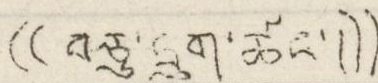(( བཅུ་དྲུག་ཚང་། ))
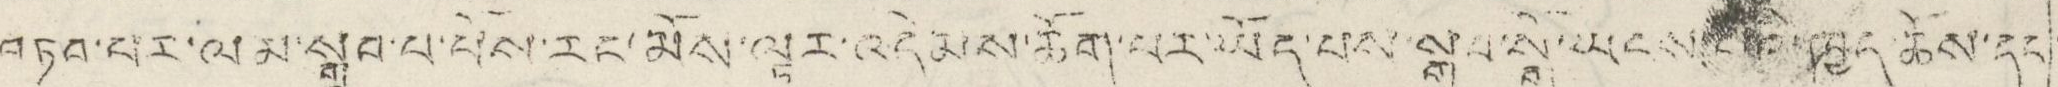བཏབ་པར་ལམ་སྒྲུབ་པ་པོས་རང་མོས་ལྟར་འདེམས་ཆོག་པར་ཡོད་པས་སྒྲུབ་སྒོ་ཡངས་བའི་ཁྱད་ཆོས་དང་
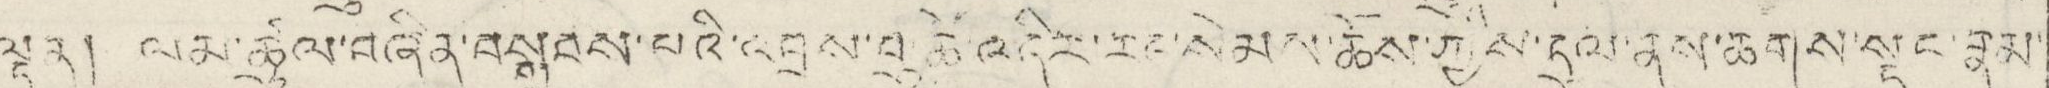ལྡན། ལམ་ཚུལ་བཞིན་བསྒྲུབས་པའི་འབྲས་བུ ཚེ་འདིར་རང་སེམས་ཆོས་ཀྱིས་དུལ་ནས་ཆགས་སྡང་རྣམ་
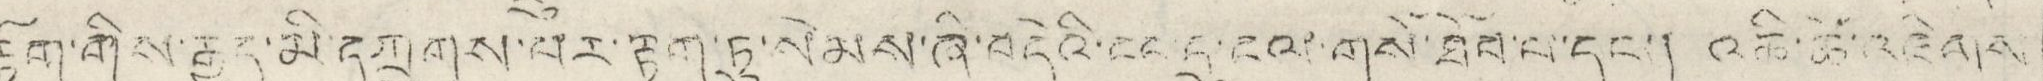རྟོག་གིས་རྒྱུད་མི་དཀྲུགས་པར་རྟག་ཏུ་སེམས་ཞི་བདེའི་ངང་དུ་ངལ་གསོ་ཐོབ་པ་དང་། འཆི་ཚེ་འཇིགས་
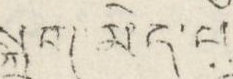སྐྲག་མེད་པ་
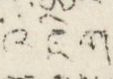འཇིག་
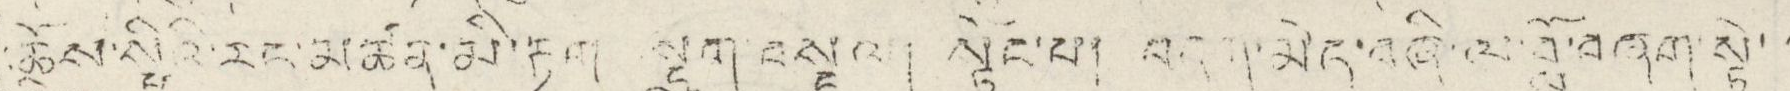ཆོས་སྤྱིའི་རང་མཚན་མི་རྟག སྡུག་བསྔལ། སྟོང་པ། བདག་མེད་བཞི་ལ་བློ་བཞག་སྟེ་་
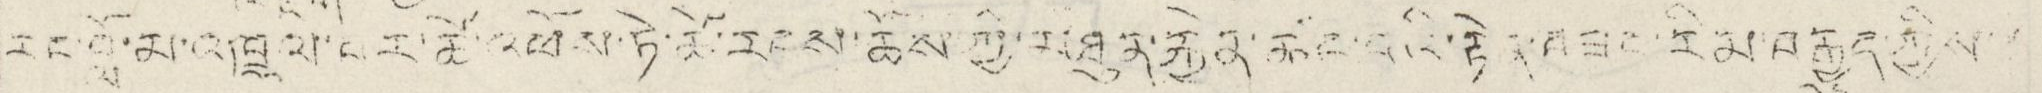རང་བློ་མ་འཁྲུལ་པར་ཚེ་འཕོས་ཏེ་ཚེ་རབས་ཆོས་ཀྱི་མཐུན་རྐྱེན་ཚང་བའི་རྟེན་བཟང་རིམ་བརྒྱུད་ཀྱིས་་་
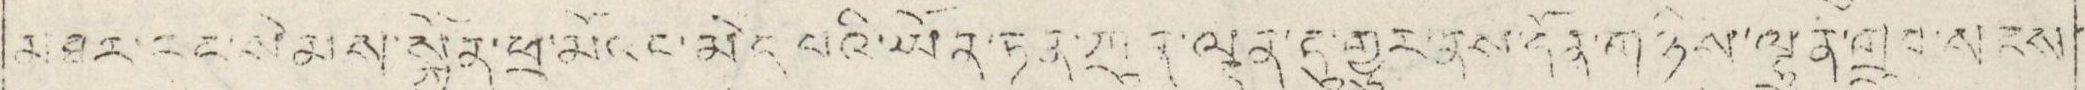མཐར་རང་སེམས་སྐྱོན་ཕྲ་མོའང་མེད་པའི་ཡོན་ཏན་ཀུན་ལྡན་དུ་གྱུར་ནས་དོན་གཉིས་ལྷུན་གྲུབ་སངས་
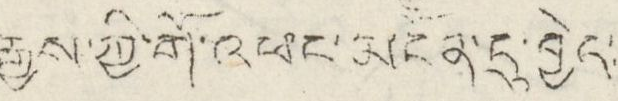རྒྱས་ཀྱི་གོ་འཕང་མངོན་དུ་བྱེད་
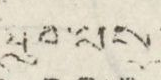ཐུབ་པས་
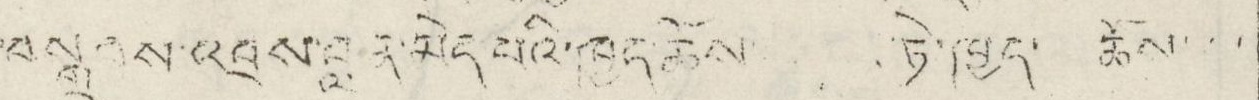བསྒྲུབས་འབྲས་བླན་མེད་པའི་ཁྱད་ཆོས ཏེ་ཁྱད་ ཆོས་་་
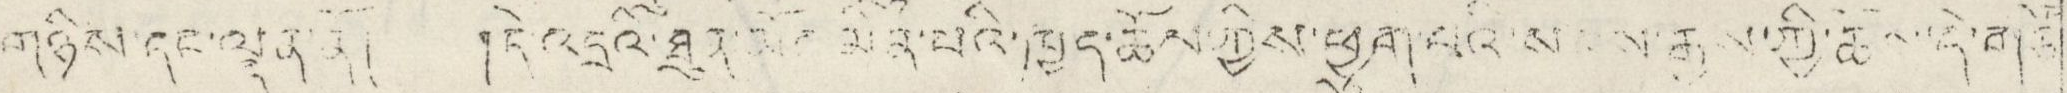གཉིས་དང་ལྡན་ནོ། །དེ་འདྲའི་ཐུན་མོང་མིན་པའི་ཁྱད་ཆོས་ཀྱིས་ཕྱུག་པའི་སངས་རྒྱས་ཀྱི་ཆོས་དེ་གཙོ་
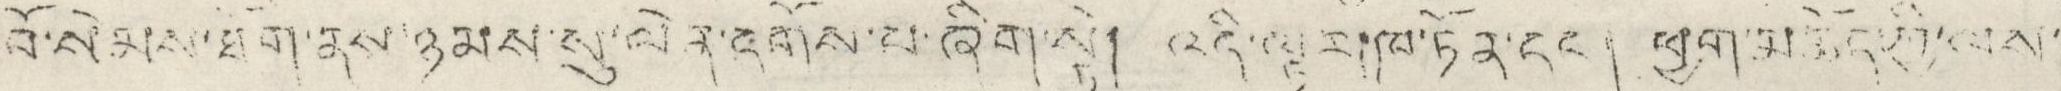བོ་སེམས་ཐོག་ནས་ཉམས་སུ་ལེན་དགོས་པ་ཞིག་སྟེ། འདི་ལྟར་ཁ་ཏོན་དང་། ཕྱག་མཆོད་ཀྱི་ལས་
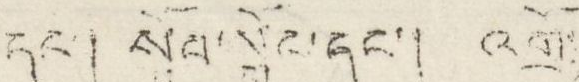དང་། སློབ་སྦྱོང་དང་།འགྲོ་
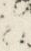འ
